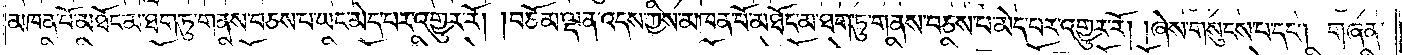མཁན་པོ་མཐོང་མ་ཐག་ཏུ་གནས་བཅས་པ་ཡང་མེད་པར་འགྱུར་རོ། །བཅོམ་ལྡན་འདས་ཀྱིས་མཁན་པོ་མཐོང་མ་ཐག་ཏུ་གནས་བཅས་པ་མེད་པར་འགྱུར་རོ། །ཞེས་གསུངས་པ་དང༌། གཞན་
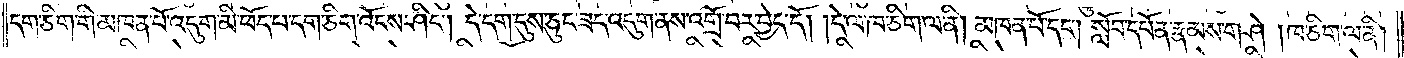དག་ཅིག་གི་མཁན་པོ་འདུག་མི་ཕོད་པ་དག་ཅིག་འོངས་ཤིང༌། དེ་དག་དུས་ཅུང་ཟད་འདུག་ནས་འགྲོ་བར་བྱེད་དོ། །དེ་ལ་ཁ་ཅིག་ལ་ནི། མཁན་པོ་དང༌། སློབ་དཔོན་རྣམས་གཤེ་།ཁ་ཅིག་ལ་ནི།
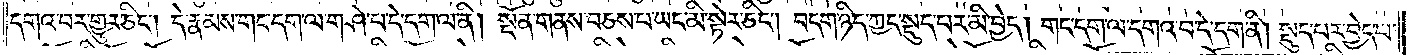དགའ་བར་གྱུར་ཅིང༌། དེ་རྣམས་གང་དག་ལ་གཤེ་པ་དེ་དག་ལ་ནི། སྔོན་གནས་བཅས་པ་ཡང་མི་སྟེར་ཅིང༌། བདག་ཉིད་ཀྱང་སྡུད་པར་མི་བྱེད། གང་དག་ལ་དགའ་བ་དེ་དག་ནི། སྡུད་པར་བྱེད་པ་
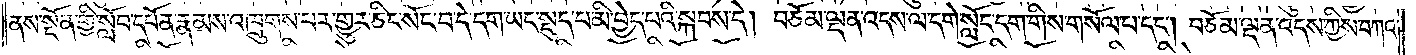ནས་སྔོན་གྱི་སློབ་དཔོན་རྣམས་འཁྲུགས་པར་གྱུར་ཅིང་སོང་བ་དེ་དག་ཡང་སྡུད་པ་མི་བྱེད་པའི་སྐབས་དེ། བཅོམ་ལྡན་འདས་ལ་དགེ་སློང་དག་གིས་གསོལ་པ་དང༌། བཅོམ་ལྡན་འདས་ཀྱིས་བཀའ་
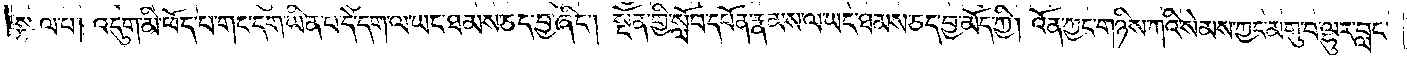སྩལ་པ། འདུག་མི་ཕོད་པ་གང་དག་ཡིན་པ་དེ་དག་ལ་ཡང་ཐམས་ཅད་བྱ་ཞིང༌། སྔོན་གྱི་སློབ་དཔོན་རྣམས་ལ་ཡང་ཐམས་ཅད་བྱ་མོད་ཀྱི། འོན་ཀྱང་གཉིས་ཀའི་སེམས་ཀྱང་མགུ་བ་ལྷུར་བླང་
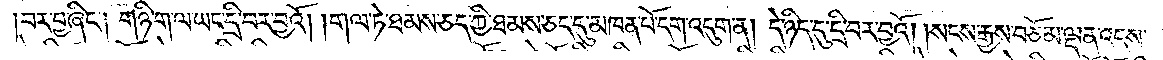བར་བྱ་ཞིང༌། གཉི་ག་ལ་ཡང་དྲི་བར་བྱའོ། །གལ་ཏེ་ཐམས་ཅད་ཀྱི་ཐམས་ཅད་དུ་མཁན་པོ་དག་འདུག་ན། དེ་ཉིད་དུ་དྲི་བར་བྱའོ། །སངས་རྒྱས་བཅོམ་ལྡན་འདས་
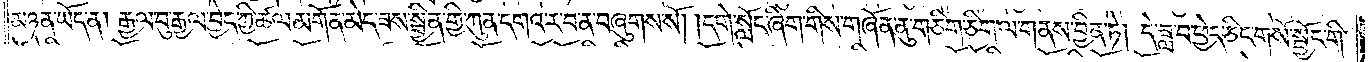མཉན་ཡོད་ན། རྒྱལ་བུ་རྒྱལ་བྱེད་ཀྱི་ཚལ་མགོན་མེད་ཟས་སྦྱིན་གྱི་ཀུན་དགའ་ར་བ་ན་བཞུགས་སོ། །དགེ་སློང་ཞིག་གིས་གཞོན་ནུ་གཅིག་ཅིག་ལ་གནས་བྱིན་ཏེ། དེ་ཟླ་བ་ཕྱེད་ཅིང་གསོ་སྦྱོང་གི་
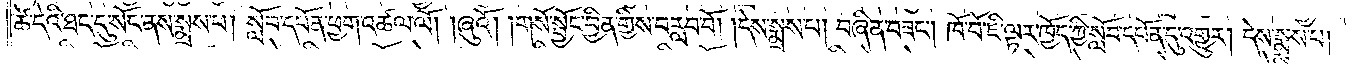ཚེ་དེའི་ཐད་དུ་སོང་ནས་སྨྲས་པ། སློབ་དཔོན་ཕྱག་འཚལ་ལོ། །ཞུའོ། །གསོ་སྦྱོང་བྱིན་གྱིས་བརླབ་བོ། །དེས་སྨྲས་པ། བཞིན་བཟང༌། ཁོ་བོ་ཇི་ལྟར་ཁྱོད་ཀྱི་སློབ་དཔོན་དུ་འགྱུར། དེས་སྨྲས་པ།
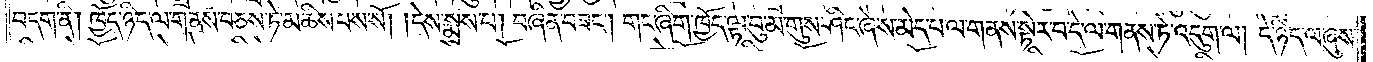བདག་ནི། ཁྱོད་ཉིད་ལ་གནས་བཅས་ཏེ་མཆིས་པས་སོ། །དེས་སྨྲས་པ། བཞིན་བཟང༌། གང་ཞིག་ཁྱོད་ལྟ་བུ་མ་གུས་ཤིང་ཞེས་མེད་པ་ལ་གནས་སྟེར་བ་དེ་ལ་གནས་ཏེ་འདུག་ལ། དེ་ཉིད་ལ་ཞུས་
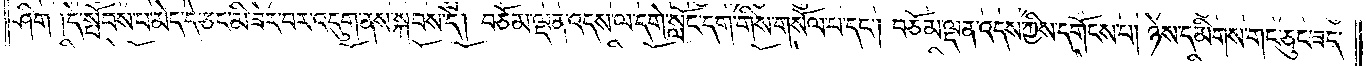ཤིག །དེ་སྤོབས་པ་མེད་དེ་ཅང་མི་ཟེར་བར་འདུག་ནས་སྐབས་དེ། བཅོམ་ལྡན་འདས་ལ་དགེ་སློང་དག་གིས་གསོལ་པ་དང༌། བཅོམ་ལྡན་འདས་ཀྱིས་དགོངས་པ། ཉེས་དམིགས་གང་ཅུང་ཟད་
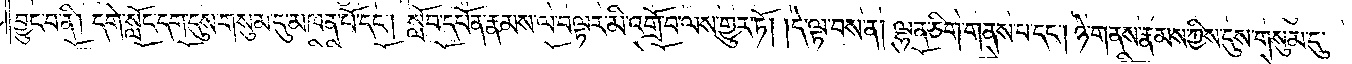བྱུང་བ་ནི། དགེ་སློང་དག་དུས་གསུམ་དུ་མཁན་པོ་དང༌། སློབ་དཔོན་རྣམས་ལ་བལྟར་མི་འགྲོ་བ་ལས་གྱུར་ཏོ། །དེ་ལྟ་བས་ན། ལྷན་ཅིག་གནས་པ་དང༌། ཉེ་གནས་རྣམས་ཀྱིས་དུས་གསུམ་དུ་
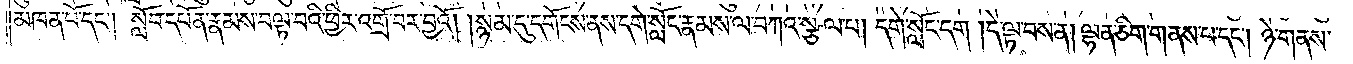མཁན་པོ་དང༌། སློབ་དཔོན་རྣམས་བལྟ་བའི་ཕྱིར་འགྲོ་བར་བྱའོ། །སྙམ་དུ་དགོངས་ནས་དགེ་སློང་རྣམས་ལ་བཀའ་སྩལ་པ། དགེ་སློང་དག །དེ་ལྟ་བས་ན། ལྷན་ཅིག་གནས་པ་དང༌། ཉེ་གནས་
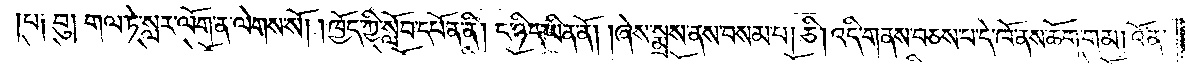པ༑ བུ། གལ་ཏེ་སླར་ལོག་ན་ལེགས་སོ། །ཁྱོད་ཀྱི་སློབ་དཔོན་ནི། ང་ཉིད་ཡིན་ནོ། །ཞེས་སྨྲས་ནས་བསམ་པ། ཅི། འདི་གནས་བཅས་པ་དེ་ཁོ་ནས་ཆོག་གམ། འོན་
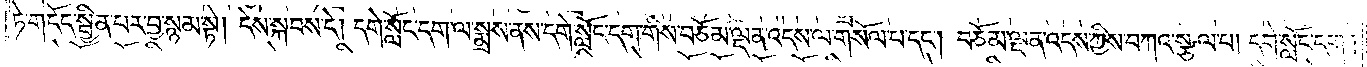ཏེ་གདོད་སྦྱིན་པར་བྱ་སྙམ་སྟེ། དེས་སྐབས་དེ། དགེ་སློང་དག་ལ་སྨྲས་ནས་དགེ་སློང་དག་གིས་བཅོམ་ལྡན་འདས་ལ་གསོལ་པ་དང༌། བཅོམ་ལྡན་འདས་ཀྱིས་བཀའ་སྩལ་པ། དགེ་སློང་དག །
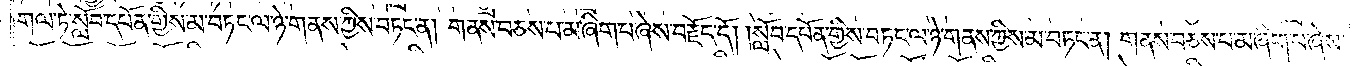གལ་ཏེ་སློབ་དཔོན་གྱིས་མ་བཏང་ལ་ཉེ་གནས་ཀྱིས་བཏང་ན། གནས་བཅས་པ་མ་ཞིག་པ་ཞེས་བརྗོད་དོ། །སློབ་དཔོན་གྱིས་བཏང་ལ་ཉེ་གནས་ཀྱིས་མ་བཏང་ན། གནས་བཅས་པ་མ་ཞིག་པ་ཞེས་
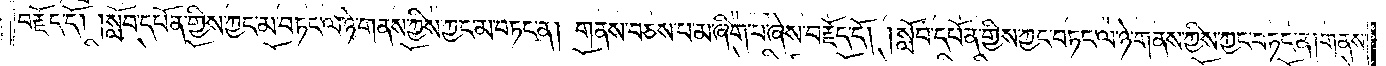བརྗོད་དོ། །སློབ་དཔོན་གྱིས་ཀྱང་མ་བཏང་ལ་ཉེ་གནས་ཀྱིས་ཀྱང་མ་བཏང་ན། གནས་བཅས་པ་མ་ཞིག་པ་ཞེས་བརྗོད་དོ། །སློབ་དཔོན་གྱིས་ཀྱང་བཏང་ལ་ཉེ་གནས་ཀྱིས་ཀྱང་བཏང་ན། གནས་
